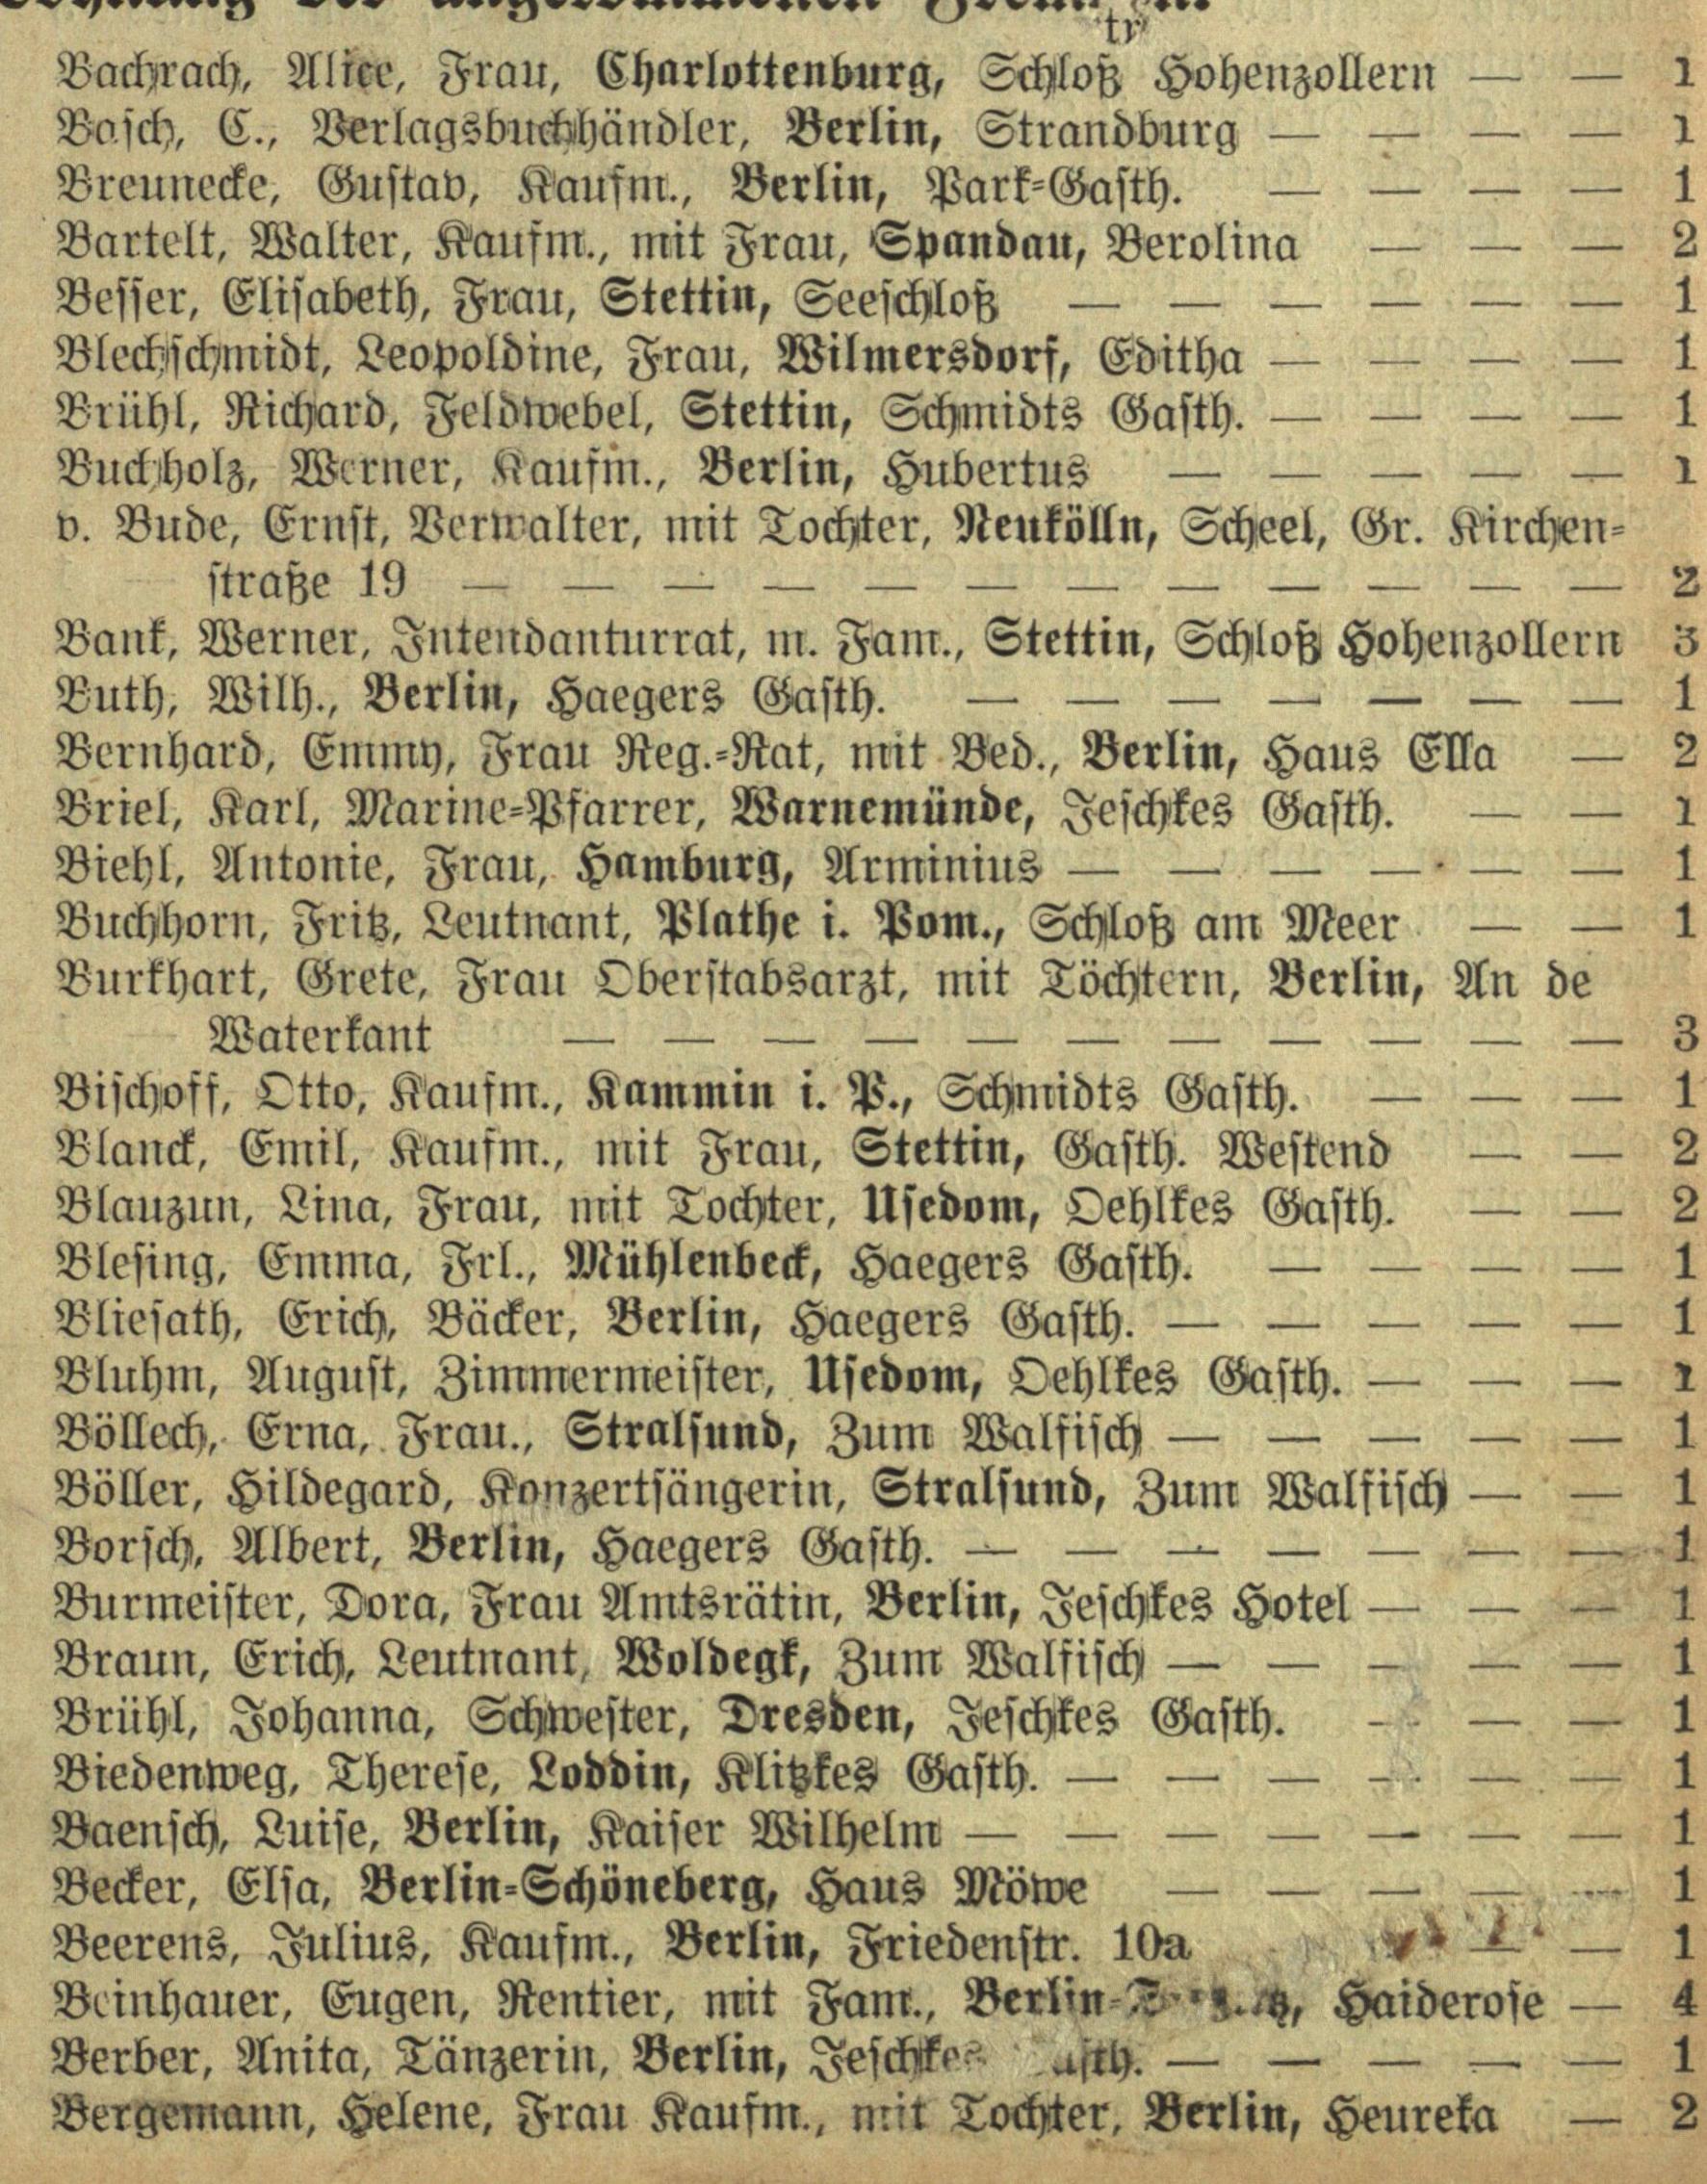Bachrach, Alice, Frau, Charlottenburg, Schloß Hohenzollern | 1
Basch, C., Berlagsbuchhändler, Berlin, Strandburg | 1
Breunecke, Gustav, Kaufm., Berlin, Park=Gasth. | 1
Bartelt, Walter, Kaufm., mit Frau, Spandau, Berolina | 2
Besser, Elisabeth, Frau, Stettin, Seeschloß | 1
Blechschmidt, Leopoldine, Frau, Wilmersdorf, Editha | 1
Brühl, Richard, Feldwebel, Stettin, Schmidts Gasth. | 1
Buchholz, Werner, Kaufm., Berlin, Hubertus | 1
v. Bude, Ernst, Verwalter, mit Tochter, Neukölln, Scheel, Gr. Kirchen=
straße 19 | 2
Bank, Werner, Intendanturrat, m. Fam., Stettin, Schloß Hohenzollern | 3
Buth, Wilh., Berlin, Haegers Gasth. | 1
Bernhard, Emma, Frau Reg.=Rat, mit Bed., Berlin, Haus Ella | 2
Briel, Karl, Marine=Pfarrer, Warnemünde, Jeschkes Gasth. | 1
Biehl, Antonie, Frau, Hamburg, Arminius | 1
Buchhorn, Fritz, Leutnant, Plathe i. Pom., Schloß am Meer | 1
Burkhart, Grete, Frau Oberstabsarzt, mit Töchtern, Berlin, An de
Waterkant | 3
Bischoff, Otto, Kaufm., Kammin i. P., Schmidts Gasth. | 1
Blanck, Emil, Kaufm., mit Frau, Stettin, Gasth. Westend | 2
Blauzun, Lina, Frau, mit Tochter, Usedom, Oehlkes Gasth. | 2
Bleising, Emma, Frl., Mühlenbeck, Haegers Gasth. | 1
Bliesath, Erich, Bäcker, Berlin, Haegers Gasth. | 1
Bluhm, August, Zimmermeister, Usedom, Oehlkes Gasth. | 1
Böllech, Erna, Frau., Stralsund, Zum Walfisch | 1
Böller, Hildegard, Konzertsängerin, Stralsund, Zum Walfisch | 1
Borsch, Albert, Berlin, Haegers Gasth. | 1
Burmeister, Dora, Frau Amtsrätin, Berlin, Jeschkes Hotel | 1
Braun, Erich, Leutnant, Woldegk, Zum Walfisch | 1
Brühl, Johanna, Schwester, Dresden, Jeschkes Gasth. | 1
Biedenweg, Therese, Loddin, Klitzkes Gasth. | 1
Baensch, Luise, Berlin, Kaiser Wilhelm | 1
Becker, Elsa, Berlin=Schöneberg, Haus Möwe | 1
Beerens, Julius, Kaufm., Berlin, Friedenstr. 10a | 1
Beinhauer, Eugen, Rentier, mit Fam., Berlin=, Haiderose | 4
Berber, Anita, Tänzerin, Berlin, Jeschkes Gasth. | 1
Bergemann, Helene, Frau Kaufm., mit Tochter, Berlin, Heureka | 2
